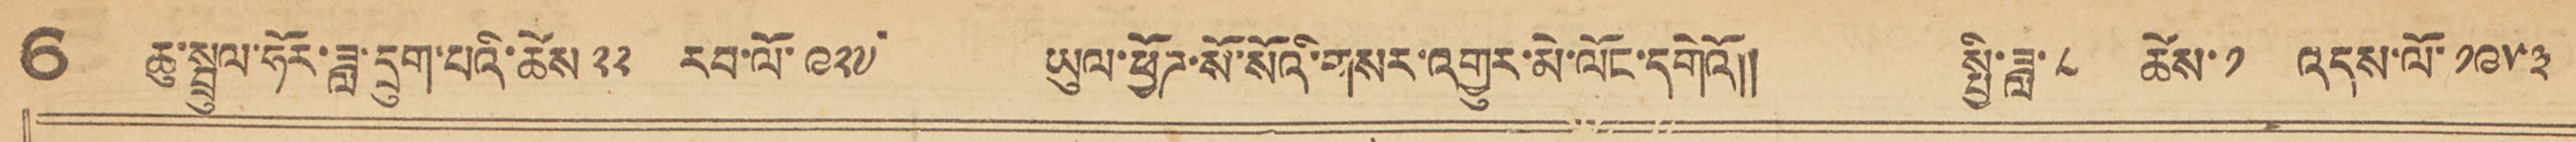6 ཆུ་སྦྲུལ་ཧོར་ཟླ་དྲུག་པའི་ཚེས་ ༢༢ རབ་ལོ་ ༩༢༧ ཡུལ་ཕྱོཌ་སོ་སོའི་གསར་འགྱུར་མེ་ལོང་དགེའི།། སྤྱི་ཟླ་༨ ཚེས་༡ འདས་ལོ་ ༡༩༥༣
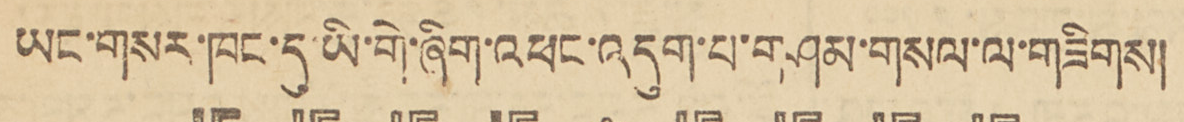ཡང་གསར་ཁང་དུ་ཡི་གེ་ཞིག་འཕང་འདུག་པ་གཤམ་གསལ་ལ་གཟིགས།
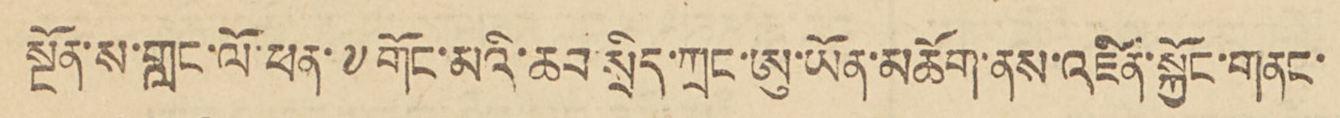སྔོན་ས་གླང་ལོ་ཕན་༸གོང་མའི་ཆབ་སྲིད་ཀྲང་ཨུ་ཡོན་མཆོག་ནས་འཛིན་སྐྱོང་གནང་
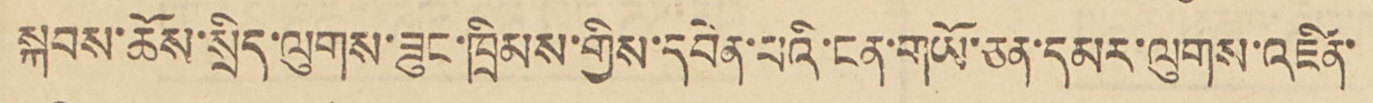སྐབས་ཆོས་སྲིད་ལུགས་ཟུང་ཁྲིམས་གྱིས་དབེན་པའི་ངན་གཡོ་ཅན་དམར་ལུགས་འཛིན་
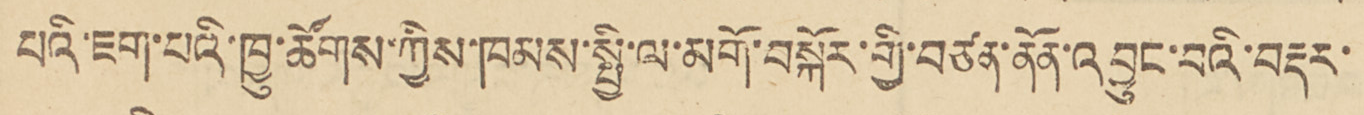པའི་ཇག་པའི་ཁྱུ་ཚོགས་ཀྱིས་ཁམས་སྤྱི་ལ་མགོ་བསྐོར་གྱི་བཙན་ནོན་འབྱུང་བའི་བརྡར་
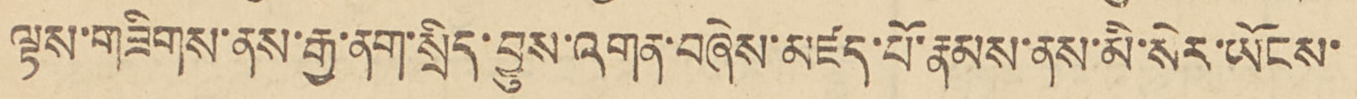ལྟས་གཟིགས་ནས་རྒྱ་ནག་སྲིད་བྱུས་འགན་བཞེས་མཛད་པོ་རྣམས་ནས་མི་སེར་ཡོངས་
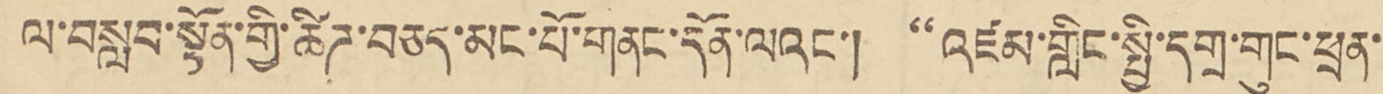ལ་བསླབ་སྟོན་གྱི་ཚིཌ་བཅད་མང་པོ་གནང་དོན་ལའང་། '"འཛམ་གླིང་སྤྱི་དགྲ་གུང་ཕྲན་
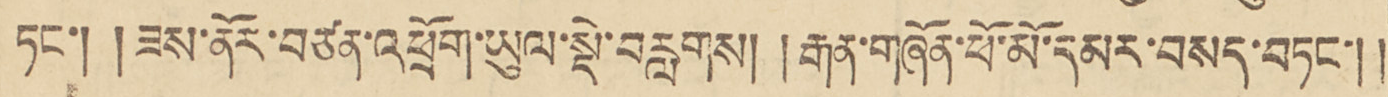ཏང་། །ཟས་ནོར་བཙན་འཕྲོག་ཡུལ་སྡེ་བརླགས། །རྒན་གཞོན་ཕོ་མོ་དམར་བསད་བཏང་།།
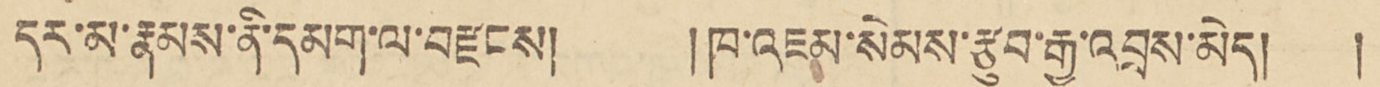དར་མ་རྣམས་ནི་དམག་ལ་བརྫངས། ཁ་འཇམ་སེམས་རྩུབ་རྒྱུ་འབྲས་མེད།།
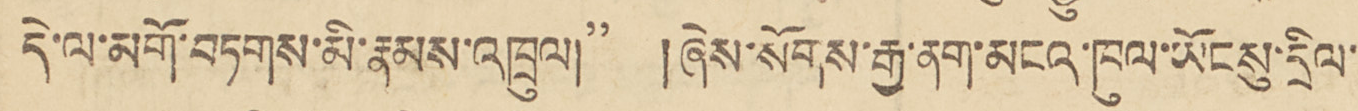དེ་ལ་མགོ་བཏགས་མི་རྣམས་འཁྲུལ།" །ཞེས་སོགས་རྒྱ་ནག་མངའ་ཁུལ་ཡོངསུ་དྲིལ་
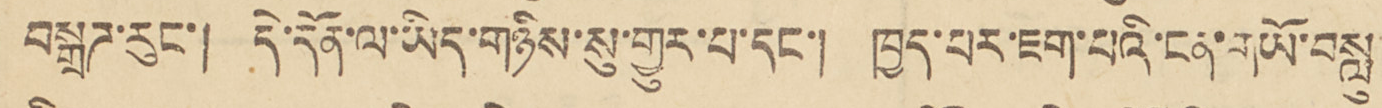བསྒྲཌ་རུང་། དེ་དོན་ལ་ཡིད་གཉིས་སུ་གྱུར་པ་དང་། ཁྱད་པར་ཇག་པའི་ངན་གཡོ་བསླུ་
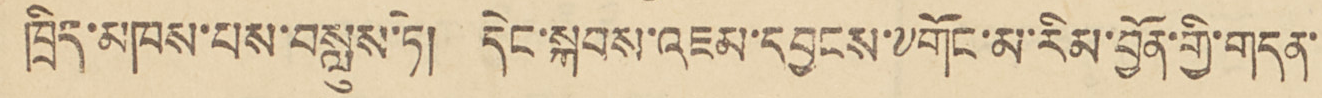ཁྲིད་མཁས་པས་བསླུས་ཏེ། དེང་སྐབས་འཇམ་དབྱངས་༸གོང་མ་རིམ་བྱོན་གྱི་གདན་
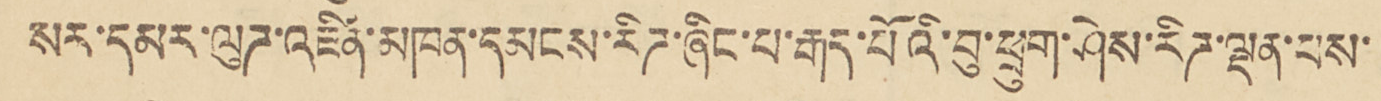སར་དམར་ལུཌ་འཛིན་མཁན་དམངས་རིཌ་ཞིང་པ་རྒད་པོའི་བུ་ཕྲུག་ཤེས་རིཌ་ལྡན་པས་
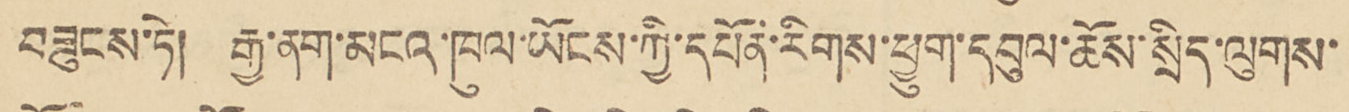བཟུངས་ཏེ། རྒྱ་ནག་མངའ་ཁུལ་ཡོངས་ཀྱི་དཔོན་རིགས་ཕྱུག་དབུལ་ཆོས་སྲིད་ལུགས་
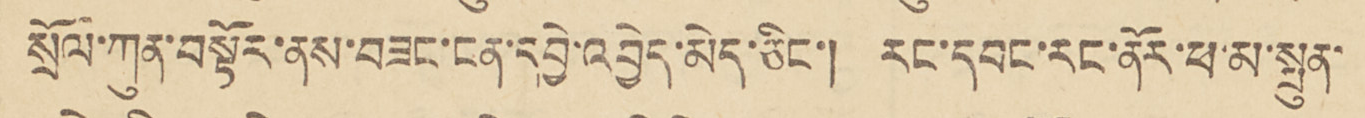སྲོལ་ཀུན་བསྟོར་ནས་བཟང་ངན་དབྱེ་འབྱེད་མེད་ཅིང་། རང་དབང་ནོར་ཕ་མ་སྤུན་
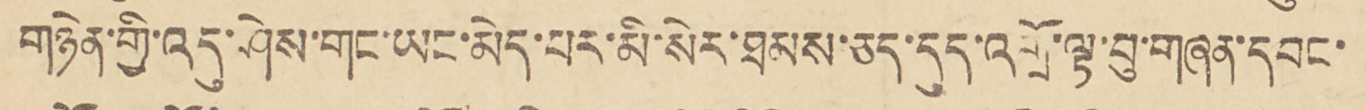གཉེན་གྱི་འདུ་ཤེས་གང་ཡང་མེད་པར་མི་སེར་ཐམས་ཅད་དུད་འགྲོ་ལྟ་བུ་གཞན་དབང་
